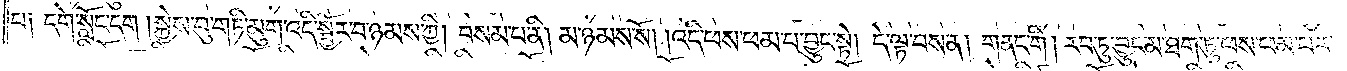པ༑ དགེ་སློང་དག །སྐྱེས་བུ་གཏི་མུག་འདི་སྦྱོར་བ་ཉམས་ཀྱི། བསམ་པ་ནི། མ་ཉམས་སོ། །འདི་ཕས་ཕམ་པ་བྱུང་སྟེ། དེ་ལྟ་བས་ན། གནང་གི། རབ་ཏུ་བྱུང་མ་ཐག་ཏུ་ཕས་ཕམ་པར་
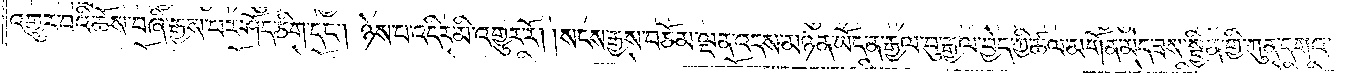འགྱུར་བའི་ཆོས་བཞི་རྒྱས་པར་ཤོད་ཅིག་དང༌། ཉེས་པ་འདིར་མི་འགྱུར་རོ། །སངས་རྒྱས་བཅོམ་ལྡན་འདས་མཉན་ཡོད་ན་རྒྱལ་བུ་རྒྱལ་བྱེད་ཀྱི་ཚལ་མགོན་མེད་ཟས་སྦྱིན་གྱི་ཀུན་དགའ་
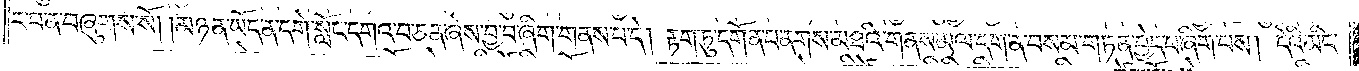ར་བ་ན་བཞུགས་སོ། །མཉན་ཡོད་ན་དགེ་སློང་དགའ་བ་ཅན་ཞེས་བྱ་བ་ཞིག་གནས་པ་དེ། རྟག་ཏུ་དགོན་པ་ནགས་མཐའི་གནས་མལ་དག་ན་བསམ་གཏན་བྱེད་པ་ཞིག་པས། དེའི་མིང་
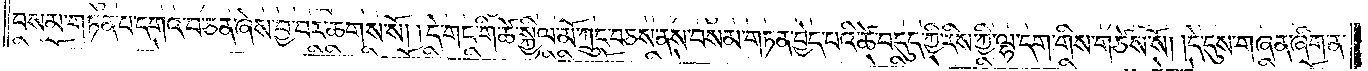བསམ་གཏན་པ་དགའ་བ་ཅན་ཞེས་བྱ་བར་ཆགས་སོ། །དེ་གང་གི་ཚེ་སྐྱིལ་མོ་ཀྲུང་བཅས་ནས་བསམ་གཏན་བྱེད་པའི་ཚེ་བདུད་ཀྱི་རིས་ཀྱི་ལྷ་དག་གིས་གཙེས་སོ། །དེ་དུས་གཞན་ཞིག་ན་
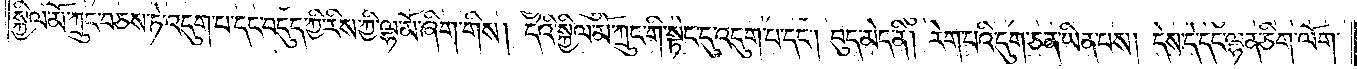སྐྱིལ་མོ་ཀྲུང་བཅས་ཏེ་འདུག་པ་དང་བདུད་ཀྱི་རིས་ཀྱི་ལྷ་མོ་ཞིག་གིས། དེའི་སྐྱིལ་མོ་ཀྲུང་གི་སྟེང་དུ་འདུག་པ་དང༌། བུད་མེད་ནི། རེག་པའི་དུག་ཅན་ཡིན་པས། དེས་དེ་དང་ལྷན་ཅིག་ལོག་
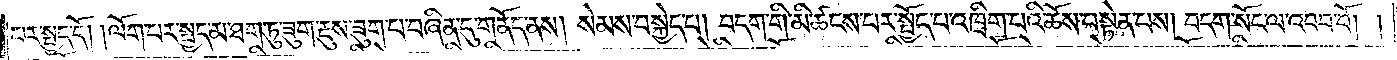པར་སྤྱད་དོ། །ལོག་པར་སྤྱད་མ་ཐག་ཏུ་ཟུག་རྔུས་ཟུག་པ་བཞིན་དུ་གནོད་ནས། སེམས་བསྐྱེད་པ། བདག་གི་མི་ཚངས་པར་སྤྱོད་པ་འཁྲིག་པའི་ཆོས་བསྟེན་པས། བདག་སོང་ལ་འབབ་བོ། །
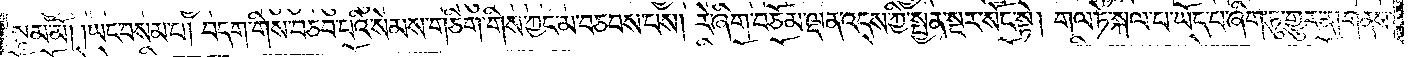སྙམ་མོ། །ཡང་བསམ་པ། བདག་གིས་བཅབ་པའི་སེམས་གཅིག་གིས་ཀྱང་མ་བཅབས་པས། རེ་ཞིག་བཅོམ་ལྡན་འདས་ཀྱི་སྤྱན་སྔར་སོང་སྟེ། གལ་ཏེ་སྐལ་པ་ཡོད་པ་ཞིག་ཏུ་གྱུར་ན། གནས་
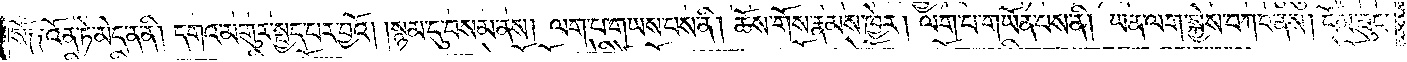སོ༑ ༑འོན་ཏེ་མེད་ན་ནི། དགའ་མགུར་སྤྱད་པར་བྱའོ། །སྙམ་དུ་བསམ་ནས། ལག་པ་གཡས་པས་ནི། ཆོས་གོས་རྣམས་ཁྱེར། ལག་པ་གཡོན་པས་ནི། ཡན་ལག་སྐྱེས་བཀབ་ནས། ངོམ་ཟུང་
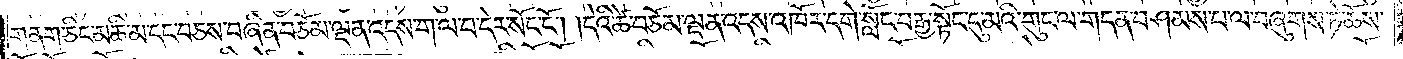གནག་ཅིང་མཆི་མ་དང་བཅས་བཞིན་བཅོམ་ལྡན་འདས་ག་ལ་བ་དེར་སོང་ངོ༌། །དེའི་ཚེ་བཅོམ་ལྡན་འདས་འཁོར་དགེ་སློང་བརྒྱ་སྟོང་དུ་མའི་གུང་ལ་གདན་བཤམས་པ་ལ་བཞུགས་ཏེ་ཆོས་
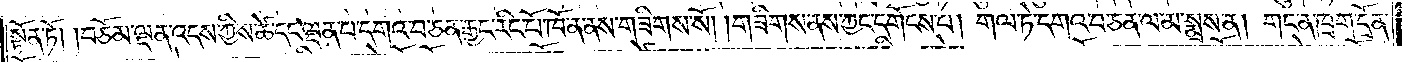སྟོན་ཏོ། །བཅོམ་ལྡན་འདས་ཀྱིས་ཚེ་དང་ལྡན་པ་དགའ་བ་ཅན་རྒྱང་རིང་པོ་ཁོ་ན་ནས་གཟིགས་སོ། །གཟིགས་ནས་ཀྱང་དགོངས་པ། གལ་ཏེ་དགའ་བ་ཅན་ལ་མ་སྨྲས་ན། གང་ན་ཁྲག་དྲོན་
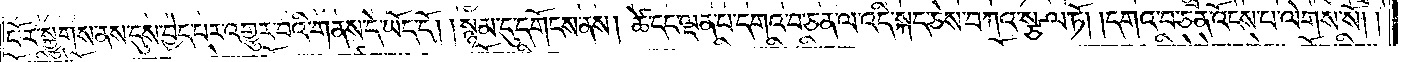པོར་སྐྱུགས་ནས་དུས་བྱེད་པར་འགྱུར་བའི་གནས་དེ་ཡོད་དོ། །སྙམ་དུ་དགོངས་ནས། ཚེ་དང་ལྡན་པ་དགའ་བ་ཅན་ལ་འདི་སྐད་ཅེས་བཀའ་སྩལ་ཏོ། །དགའ་བ་ཅན་འོངས་པ་ལེགས་སོ། །
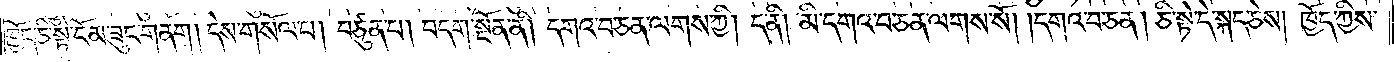ཁྱོད་ཅི་སྟེ་ངོམ་ཟུང་གནག །དེས་གསོལ་པ། བཙུན་པ། བདག་སྔོན་ནི། དགའ་བ་ཅན་ལགས་ཀྱི། ད་ནི། མི་དགའ་བ་ཅན་ལགས་སོ། །དགའ་བ་ཅན། ཅི་སྟེ་དེ་སྐད་ཅེས། ཁྱོད་ཀྱིས་
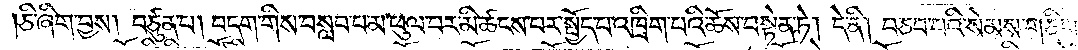ཅི་ཞིག་བྱས། བཙུན་པ། བདག་གིས་བསླབ་པ་མ་ཕུལ་བར་མི་ཚངས་པར་སྤྱོད་པ་འཁྲིག་པའི་ཆོས་བསྟེན་ཏེ། དེ་ནི། བཅབ་པའི་སེམས་གཅིག་
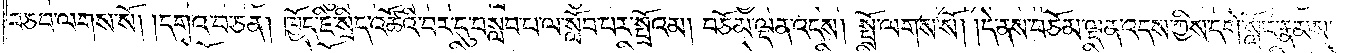བཅབ་ལགས་སོ། །དགའ་བ་ཅན། ཁྱོད་ཇི་སྲིད་འཚོའི་བར་དུ་བསླབ་པ་ལ་སློབ་པར་སྤྲོའམ། བཅོམ་ལྡན་འདས། སྤྲོ་ལགས་སོ། །དེ་ནས་བཅོམ་ལྡན་འདས་ཀྱིས་དགེ་སློང་རྣམས་
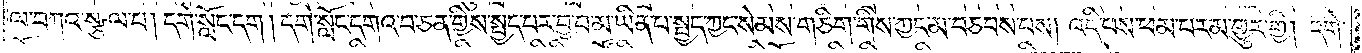ལ་བཀའ་སྩལ་པ། དགེ་སློང་དག །དགེ་སློང་དགའ་བ་ཅན་གྱིས་སྤྱད་པར་བྱ་བ་མ་ཡིན་པ་སྤྱད་ཀྱང་སེམས་གཅིག་གིས་ཀྱང་མ་བཅབས་པས། འདི་ཕས་ཕམ་པར་མ་གྱུར་གྱི། དགེ་
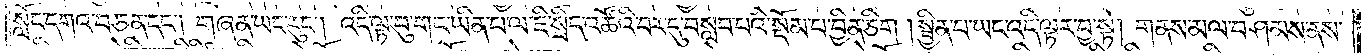སློང་དགའ་བཅན་དང༌། གཞན་ཡང་རུང༌། འདི་ལྟ་བུ་གང་ཡིན་པ་ལ་ཇི་སྲིད་འཚོའི་བར་དུ་བསླབ་པའི་སྡོམ་པ་བྱིན་ཅིག །སྦྱིན་པ་ཡང་འདི་ལྟར་བྱ་སྟེ། གནས་མལ་བཤམས་ནས་
